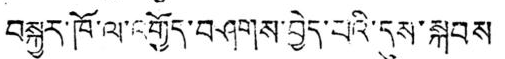བསྐྱར་ཁོ་ལ་འགྱོད་བཤགས་བྱེད་པའི་དུས་སྐབས་
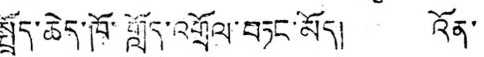སྤྲོད་ཆེད་ཁོ་གློད་འགྲོལ་བཏང་མོད། འོན་
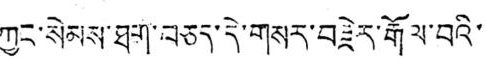ཀྱང་སེམས་ཐག་བཅད་དེ་གསར་བརྗེར་རྒོལ་བའི་
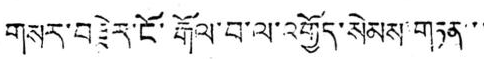གསར་བརྗེར་ངོ་རྒོལ་བ་ལ་འགྱོད་སེམས་གཏན་་་
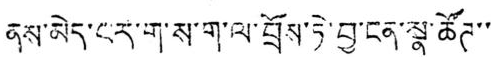ནས་མེད་པར་ག་ས་ག་ལ་བྲོས་ཏེ་བྱ་ངན་སྣ་ཚོཊ་་
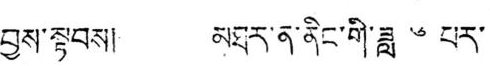བྱས་སྟབས། མཐར་ན་ནིང་གི་ཟླ ༦ པར་
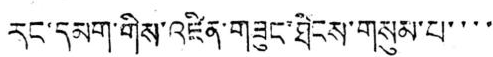རང་དམག་གིས་འཛིན་གཟུང་ཐེངས་གསུམ་པ་་་་
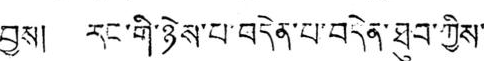བྱས། རང་གི་ཉེས་པ་བདེན་པ་བདེན་ཐུབ་ཀྱིས་
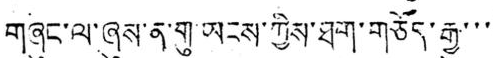གཞུང་ལ་ཞུས་ན་གུ་ཡངས་ཀྱིས་ཐག་གཅོད་རྒྱུ་་་
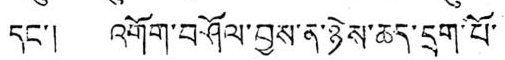དང་། འགོག་བཤོལ་བྱས་ན་ཉེས་ཆད་དྲག་པོ་
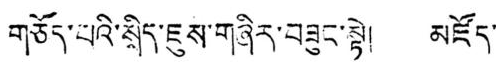གཅོད་པའི་སྲིད་ཇུས་གཞིར་བཟུང་སྟེ། མཛོད་
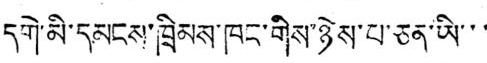དགེ་མི་དམངས་ཁྲིམས་ཁང་གིས་ཉེས་པ་ཅན་ཡི་་་
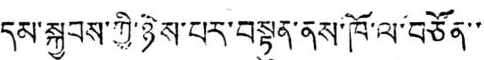དམ་སྐྱབས་ཀྱི་ཉེས་པར་བསྟུན་ནས་ཁོ་ལ་བཙོན་་་
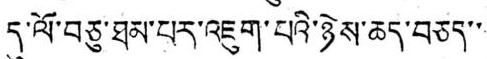དུ་ལོ་བཅུ་ཐམ་པར་འཇུག་པའི་ཉེས་ཆད་བཅད་་་
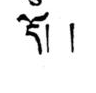དོ། །
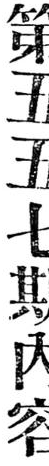第五五七期內容
